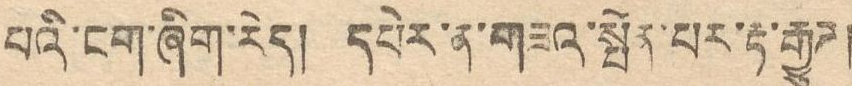པའི་ངག་ཞིག་རེད། དཔེར་ན་གཟའ་སྤེན་པར་རྟ་རྒྱུཊ།
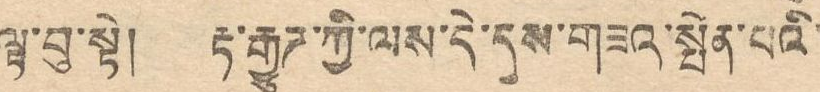ལྟ་བུ་སྟེ། རྟ་རྒྱུཊ་ཀྱི་ལས་དེ་དུས་གཟའ་སྤེན་པའི་
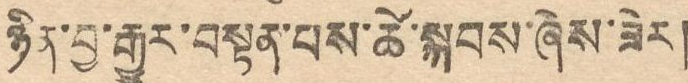ཉིན་བྱ་རྒྱུར་བསྟན་པས་ཚེ་སྐབས་ཞེས་ཟེར།
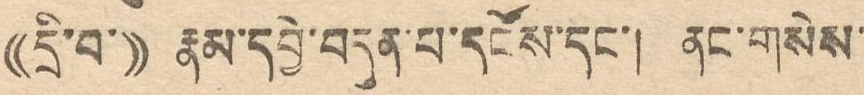((དྲི་བ་)) རྣམ་དབྱེ་བདུན་པ་དངོས་དང་། ནང་གསེས་
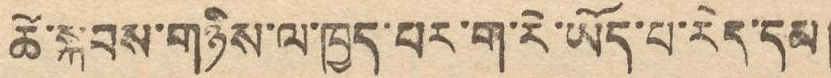ཚེ་སྐབས་གཉིས་ལ་ཁྱད་པར་ག་རེ་ཡོད་པ་རེད་དམ།
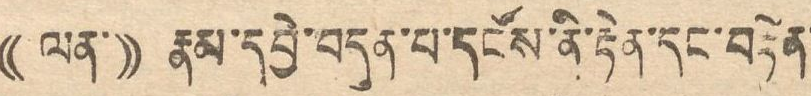(( ལན་)) རྣམ་དབྱེ་བདུན་པ་དངོས་ནི་རྟེན་དང་བརྟེན་
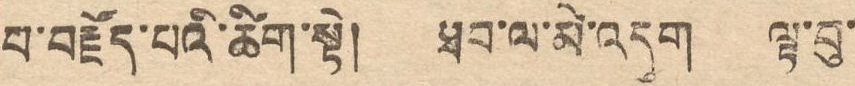པ་བརྗོད་པའི་ཚིག་སྟེ། ཐབ་ལ་མེ་འདུག ལྟ་བུ་
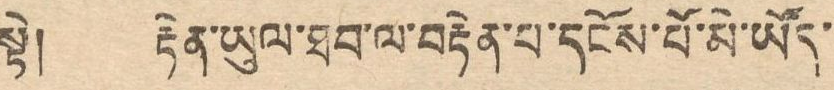སྟེ། རྟེན་ཡུལ་ཐབ་ལ་བརྟེན་པ་དངོས་པོ་མེ་ཡོད་
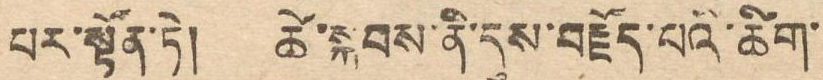པར་སྟོན་ཏེ། ཚེ་སྐབས་ནི་དུས་བརྗོད་པའི་ཚིག་
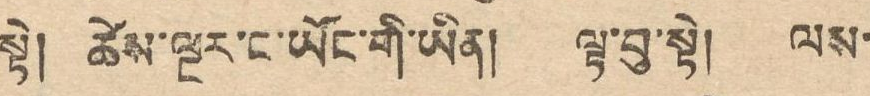སྟེ། ཚེས་ལྔར་ང་ཡོང་གི་ཡིན། ལྟ་བུ་སྟེ། ལས་
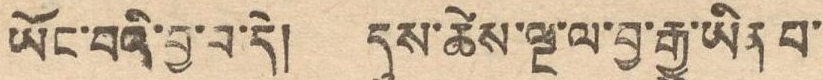ཡོང་བའི་བྱ་བ་དེ། དུས་ཚེས་ལྔ་ལ་བྱ་རྒྱུ་ཡིན པ་
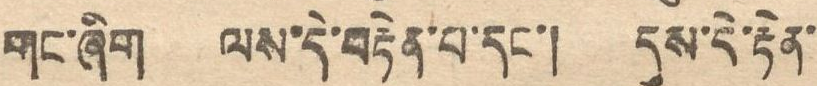གང་ཞིག ལས་དེ་བརྟེན་པ་དང་། དུས་དེ་རྟེན་
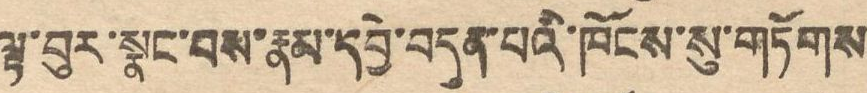ལྟ་བུར་སྣང་བས་རྣམ་དབྱེ་བདུན་པའི་ཁོངས་སུ་གཏོགས
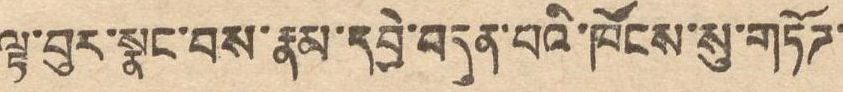ལྟ་བུར་སྣང་བས་རྣམ་དབྱེ་བདུན་པའི་ཁོངས་སུ་གཏོཊ་
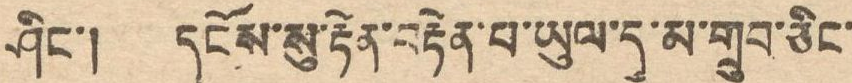ཤིང་། དངོས་སུ་རྟེན་བརྟེན་པ་ཡུལ་དུ་མ་གྲུབ་ཅིང་
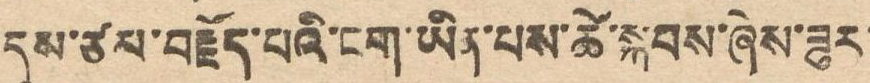དུས་ཙམ་བརྫོད་པའི་ངག་ཡིན་པ་ཚེ་སྐབས་ཞེས་ཟུར་
